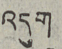འདུག
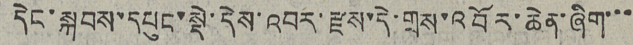དེང་སྐབས་དཔུང་སྡེ་དེས་འབར་རྫས་དེ་གྲས་འབོར་ཆེན་ཞིག་་་
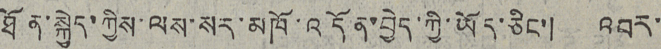ཐོན་སྐྱེད་ཀྱིས་ལས་སར་མཁོ་འདོན་བྱེད་ཀྱི་ཡོད་ཅིང་། འབར་
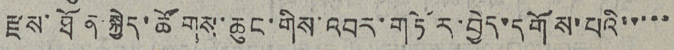རྫས་ཐོན་སྐྱེད་ཚོགས་ཆུང་གིས་འབར་གཏོར་བྱེད་དགོས་པའི་་་་་
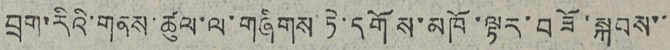བྲག་རིའི་གནས་ཚུལ་ལ་གཞིགས་ཏེ་དགོས་མཁོ་ལྟར་བཟོ་སྐབས་་
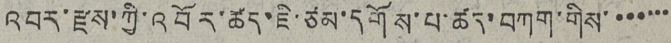འབར་རྫས་ཀྱི་འབོར་ཚད་ཇི་ཙམ་དགོས་པ་ཚད་བཀག་གིས་་་་་་་
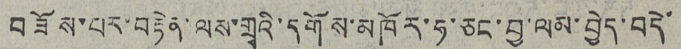བཟོས་པར་བརྟེན་ལས་གྲྭའི་དགོས་མཁོར་ཧ་ཅང་བྱ་ལམ་བྱེད་བདེ་
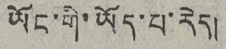ཡོང་གི་ཡོད་པ་རེད།
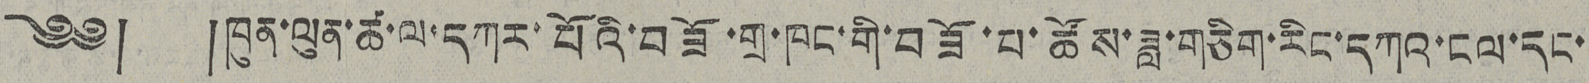༄༅། །ཁུན་ལུན་ཚ་ལ་དཀར་པོའི་བཟོ་གྲ་ཁང་གི་བཟོ་པ་ཚོས་ཟླ་གཅིག་རིང་དཀའ་ངལ་དང་
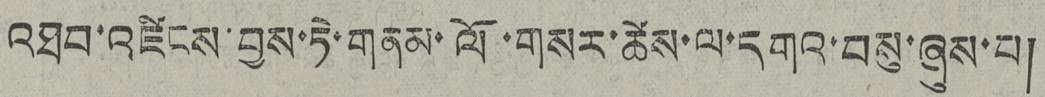འཐབ་འཛིངས་བྱས་ཏེ་གནམ་ལོ་གསར་ཚེས་ལ་དགའ་བསུ་ཞུས་པ།
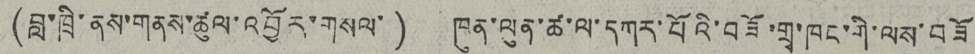(བླ་ཁྲི་ནས་གནས་ཚུལ་འབྱོར་གསལ་) ཁུན་ལུན་ཚ་ལ་དཀར་པོའི་བཟོ་གྲྭ་ཁང་གི་ལས་བཟོ
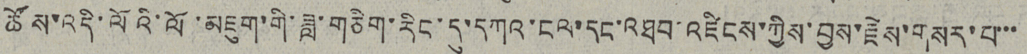ཚོས་འདི་ལོའི་ལོ་མཇུག་གི་ཟླ་གཅིག་རིང་དུ་དཀའ་ངལ་དང་འཐབ་འཛིངས་ཀྱིས་བྱས་རྗེས་གསར་པ་་་
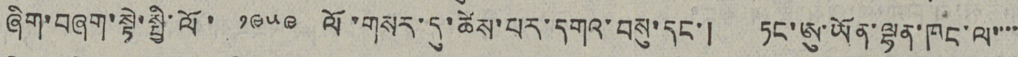ཞིག་བཞག་སྟེ་སྤྱི་ལོ་ ༡༩༥༩ ལོ་གསར་དུ་ཚེས་པར་དགའ་བསུ་དང་།  ཏང་ཨུ་ཡོན་ལྷན་ཁང་ལ་་་་
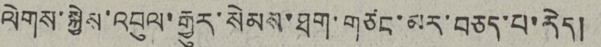ལེགས་སྐྱེས་འབུལ་རྒྱུར་སེམས་ཐག་གཙང་མར་བཅད་པ་རེད།
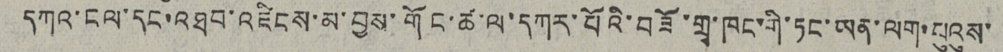དཀའ་ངལ་དང་འཐབ་འཛིངས་མ་བྱས་གོང་ཚ་ལ་དཀར་པོའི་བཟོ་གྲྭ་ཁང་གི་ཏང་ཡན་ལག་པུའུས་
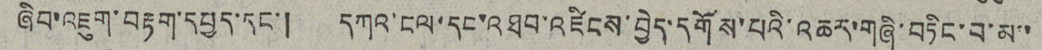ཞིབ་འཇུག་བརྟག་དཔྱད་དང་། དཀའ་ངལ་དང་འཐབ་འཛིངས་བྱེད་དགོས་པའི་འཆར་གཞི་བཏིང་བ་མ་་
